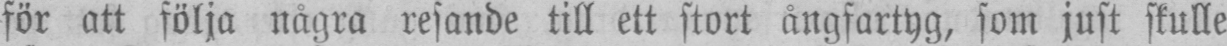för att följa några resande till ett stort ångfartyg, som just skulle
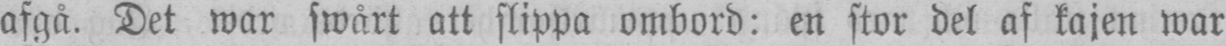afgå. Det war swårt att slippa ombord: en stor del af kajen war
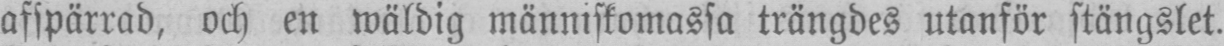afspärrad, och en wäldig människomassa trängdes utanför stängslet.
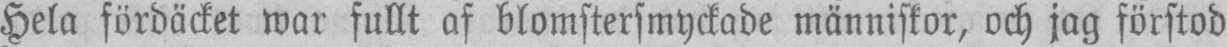Hela fördäcket war fullt af blomstersmyckade människor, och jag förstod
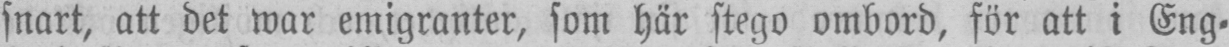snart, att det war emigranter, som här stego ombord, för att i Eng-
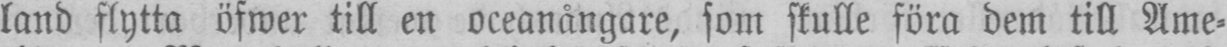land flytta öfwer till en oceanångare, som skulle föra dem till Ame-
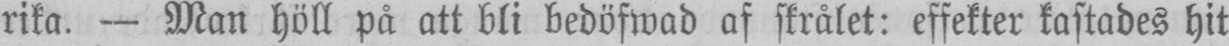rika. — Man höll på att bli bedöfwad af skrålet: effekter kastades hit
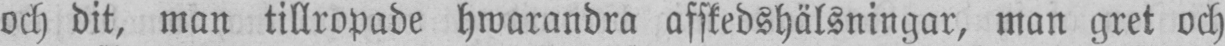och dit, man tillropade hwarandra afskedshälsningar, man gret och
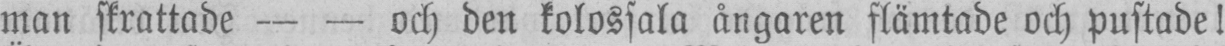man skrattade — — och den kolossala ångaren flämtade och pustade!
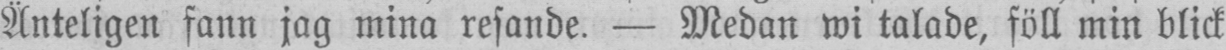Änteligen fann jag mina resande. — Medan wi talade, föll min blick
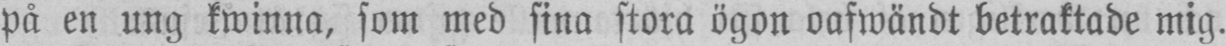på en ung kwinna, som med sina stora ögon oafwändt betraktade mig.
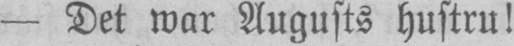— Det war Augusts hustru!
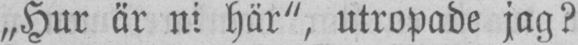„Hur är ni här", utropade jag?
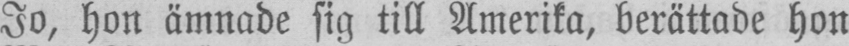Jo, hon ämnade sig till Amerika, berättade hon
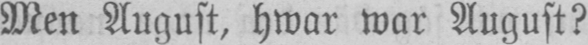Men August, hwar war August?
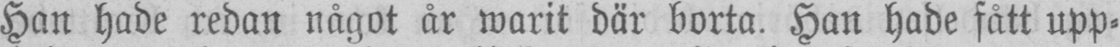Han hade redan något år warit där borta. Han hade fått upp-
